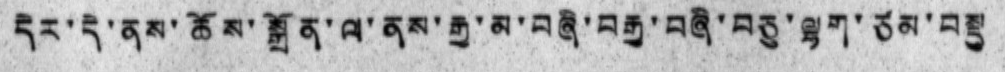དེར་དེ་ནས་ཆོས་སྒྲོན་ལ་ནས་རྒྱ་མ་བཞི་བཅུ་ལྷག་ཙམ་བསྡུ
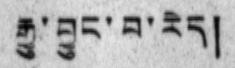རྒྱུ་བྱུང་བ་རེད།
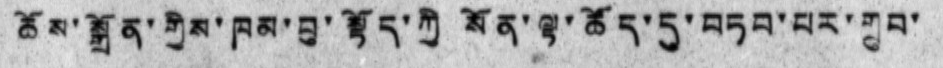ཆོས་སྒྲོན་གྱིས་ཁམ་བུ་སྟོད་ཀྱི སོན་ལྟ་ཚོད་དུ་བཏབ་པར་གྲུབ་
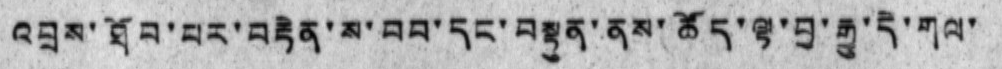འབྲས་ཐོབ་པར་བརྟེན་ས་བབ་དང་བསྟུན་ནས་ཚོད་ལྟ་བུ་རྒྱུ་དེ་གལ་
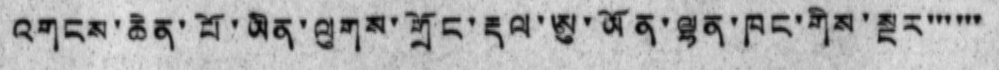འགངས་ཆེན་པོ་ཡིན་ལུགས་གྲོང་རྡལ་ཨུ་ཡོན་ལྷན་ཁང་གིས་སྔར་་་་་་
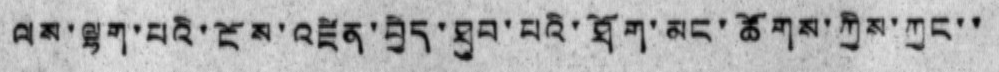ལས་ལྷག་པའི་ངོས་འཛིན་བྱེད་ཐུབ་པའི་ཐོག་མང་ཚོགས་ཀྱིས་ཀྱང་་
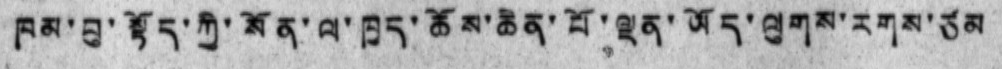ཁམ་བུ་སྟོད་ཀྱི་སོན་ལ་ཁྱད་ཆོས་ཆེན་པོ་ལྡན་ཡོད་ལུགས་རགས་ཙམ
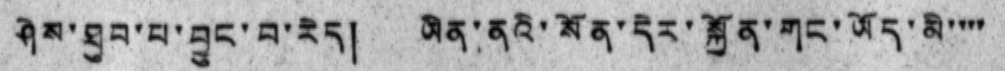ཤེས་ཐུབ་པ་བྱུང་བ་རེད། ཡིན་ནའི་སོན་དེར་སྐྱོན་གང་ཡོད་མི་་་་
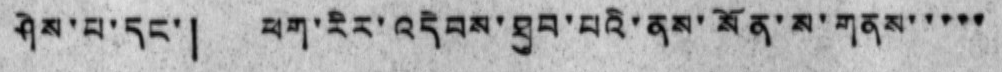ཤེས་པ་དང་། ཕག་རིར་འདེབས་ཐུབ་པའི་ནས་སོན་ས་གནས་་་་་
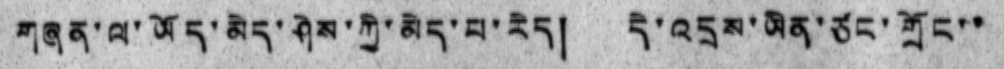གཞན་ལ་ཡོད་མེད་ཤེས་ཀྱི་མེད་པ་རེད། དེ་འདྲས་ཡིན་ཙང་གྲོང་་
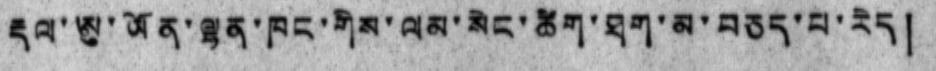རྡལ་ཨུ་ཡོན་ལྷན་ཁང་གིས་ལམ་སེང་ཚིག་ཐག་མ་བཅད་པ་རེད།
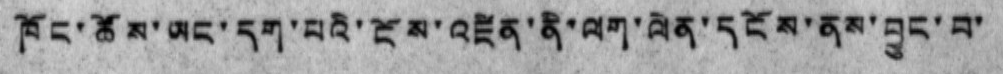ཁོང་ཚོས་ཡང་དག་པའི་ངོས་འཛིན་ནི་ལག་ལེན་དངོས་ནས་བྱུང་བ་
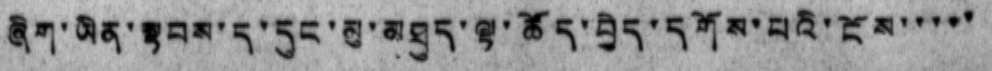ཞིག་ཡིན་སྟབས་ད་དུང་མུ་མཐུད་ལྟ་ཚོད་བྱེད་དགོས་པའི་ངོས་་་་་
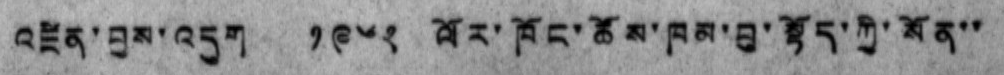འཛིན་བྱས་འདུག ༡༩༦༢ ལོར་ཁོང་ཚོས་ཁམ་བུ་སྟོད་ཀྱི་སོན་་
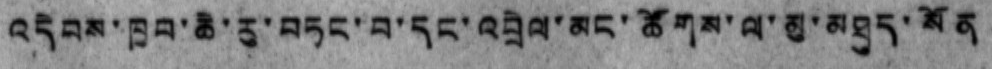འདེབས་ཁྱབ་ཆེ་རུ་བཏང་བ་དང་འབྲེལ་མང་ཚོགས་ལ་མུ་མཐུད་སོན
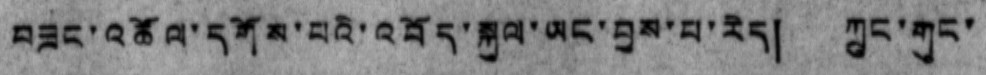བཟང་འཆོལ་དགོས་པའི་འབོད་སྐུལ་ཡང་བྱས་པ་རེད། ཀྲུང་གུང་
